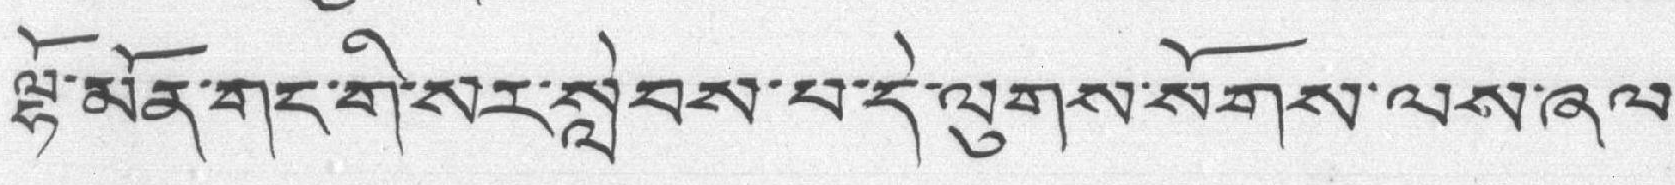ལྷོ་མོན་གང་གི་སར་སླེབས་པ་དེ་ལུགས་སོགས་ལས་ཞལ་
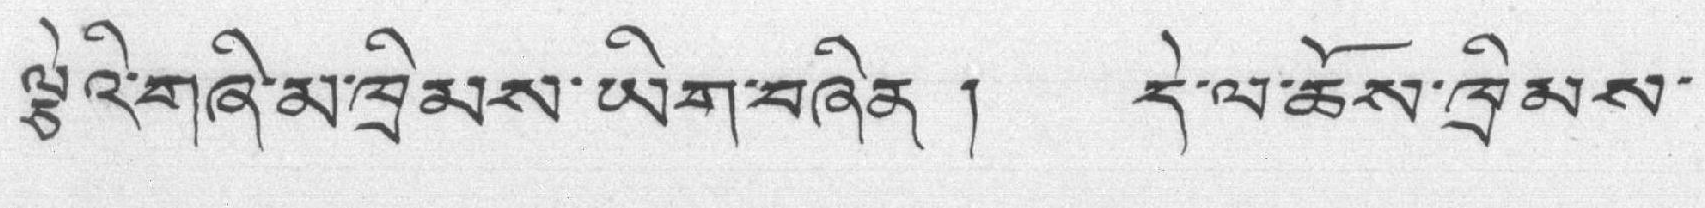ལྕེའི་གཞི་མ་ཁྲིམས་ཡིག་བཞིན ། དེ་ལ་ཆོས་ཁྲིམས་
